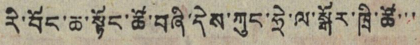རི་བོང་ཆ་སྟོང་ཚོ་བཞི་དེས་ཀུང་ཧྲེ་ལ་སྒོར་ཁྲི་ཚོ་་་
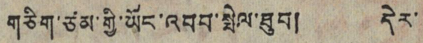གཅིག་ཙམ་གྱི་ཡོང་འབབ་སྤེལ་ཐུབ། དེར་
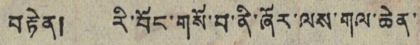བརྟེན། རི་བོང་གསོ་བ་ནི་ཞོར་ལས་གལ་ཆེན་
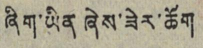ཞིག་ཡིན ཞེས་ཟེར་ཆོག
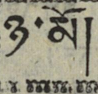ཉ་མོ།
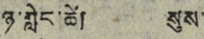ཉ་གླེང་ཚེ། སུས་
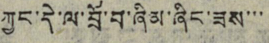ཀྱང་དེ་ལ་བྲོ་བ་ཞིམ་ཞིང་ཟས་་་
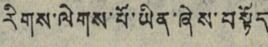རིགས་ལེགས་པོ་ཡིན་ཞེས་བསྟོད
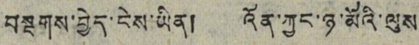བསྔགས་བྱེད་ངེས་ཡིན། འོན་ཀྱང་ཉ་མོའི་ལུས་
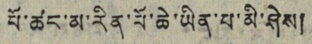པོ་ཚང་མ་རིན་པོ་ཆེ་ཡིན་པ་མི་ཤེས།
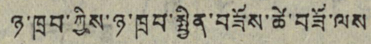ཉ་ཁྲབ་ཀྱིས་ཉ་ཁྲབ་སྦྱིན་བཟོས་ཚེ་བཟོ་ལས
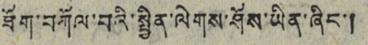ཐོག་བཀོལ་བའི་སྤྱིན་ལེགས་ཤོས་ཡིན་ཞིང་།
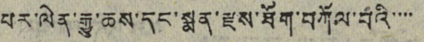པར་ལེན་རྒྱུ་ཆས་དང་སྨན་རྫས་ཐོག་བཀོལ་བའི་་་་
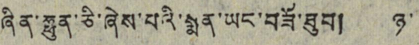ཞིན་ཧྥུན་ཅི་ཞེས་པའི་སྨན་ཡང་བཟོ་ཐུབ། ཉ་
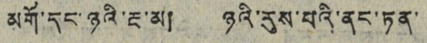མགོ་དང་ཉའི་རྔ་མ། ཉའི་རུས་པའི་ནང་ཏན་
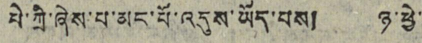པེ་ཀྲི་ཞེས་པ་མང་པོ་འདུས་ཡོད་པས། ཉ་ཕྱེ་་
